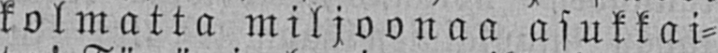kolmatta miljoonaa asukkai-
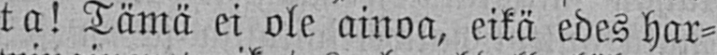ta! Tämä ei ole ainoa, eikä edes har-
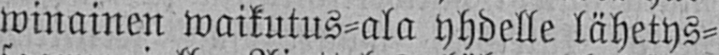winainen waikutus-ala yhdelle lähetys-
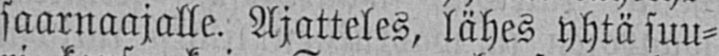saarnaajalle. Ajatteles, lähes yhtä suu-
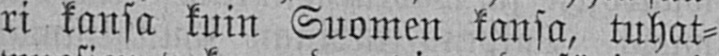ri kansa kuin Suomen kansa, tuhat-
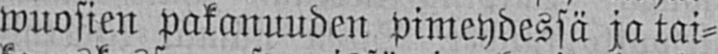wuosien pakanuuden pimeydessä ja tai-
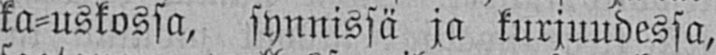ka-uskossa, synnissä ja kurjuudessa,
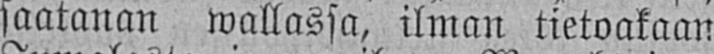saatanan wallassa, ilman tietoakaan
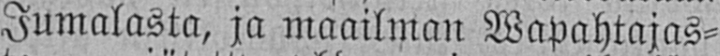Jumalasta, ja maailman Wapahtajas-
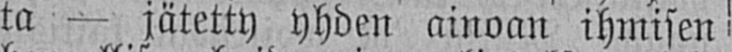ta — jätetty yhden ainoan ihmisen
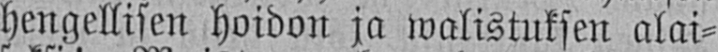hengellisen hoidon ja walistuksen alai-
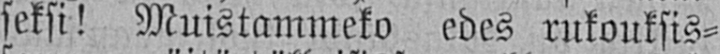seksi! Muistammeko edes rukouksis-
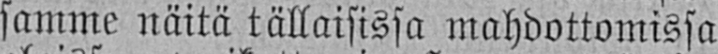samme näitä tällaisissa mahdottomissa
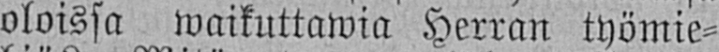oloissa waikuttawia Herran työmie-
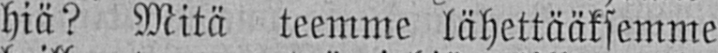hiä? Mitä teemme lähettääksemme
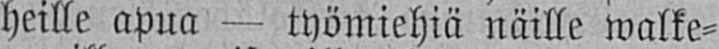heille apua — työmiehiä näille walke-
